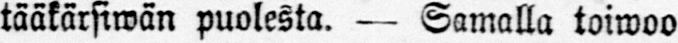tääkärsiwän puolesta. — Samalla toiwoo
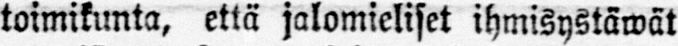toimikunta, että jalomieliset ihmisystäwät
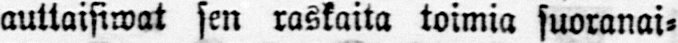auttaisiwat sen raskaita toimia suoranai-
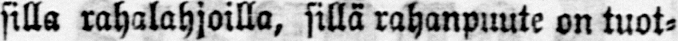silla rahalahjoilla, sillä rahanpuute on tuot-
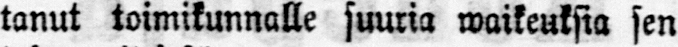tanut toimikunnalle suuria waikeuksia sen
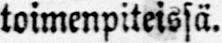toimenpiteissä.
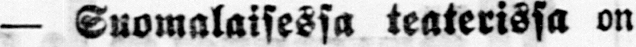— Suomalaisessa teaterissa on
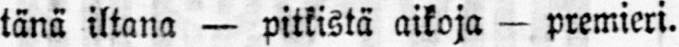tänä iltana — pitkistä aikoja — premieri.
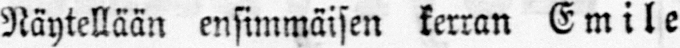Näytellään ensimmäisen kerran Emile
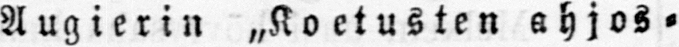Augierin „Koetusten ahjos-
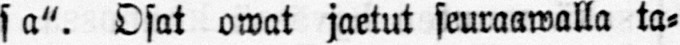sa". Osat owat jaetut seuraawalla ta-
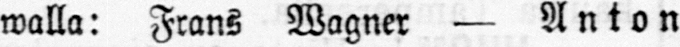walla: Frans Wagner — Anton
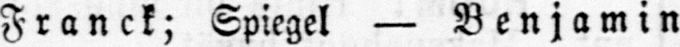Franck; Spiegel — Benjamin
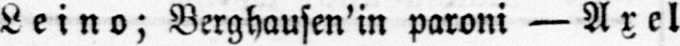Leino; Berghausen'in paroni — Axel
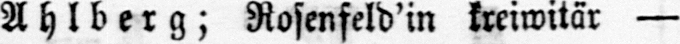Ahlberg; Rosenfeld'in kreiwitär —
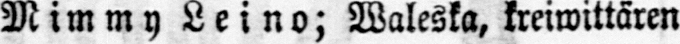Mimmy Leino; Waleska, kreiwittären
